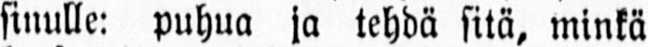sinulle: puhua ja tehdä sitä, minkä
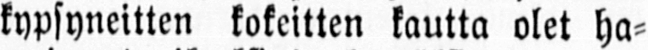kypsyneitten kokeitten kautta olet ha-
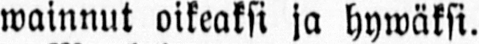wainnut oikeaksi ja hywäksi.
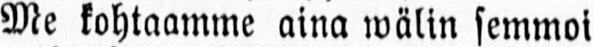Me kohtaamme aina wälin semmoi-
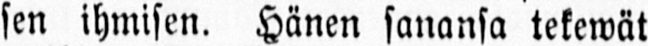sen ihmisen. Hänen sanansa tekewät
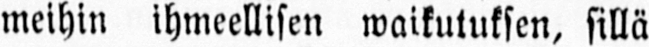meihin ihmeellisen waikutuksen, sillä
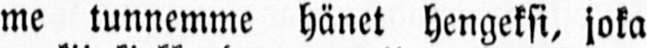me tunnemme hänet hengeksi, joka
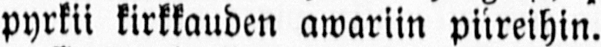pyrkii kirkkauden awariin piireihin.
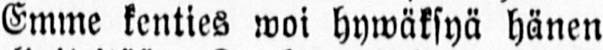Emme kenties woi hywäksyä hänen
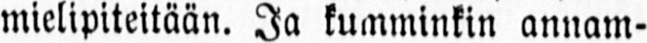mielipiteitään. Ja kumminkin annam-
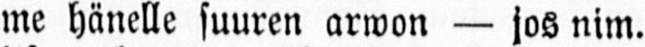me hänelle suuren arwon — jos nim.
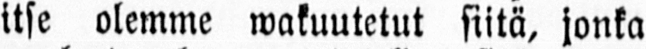itse olemme wakuutetut siitä, jonka
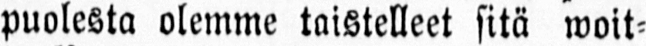puolesta olemme taistelleet sitä woit-
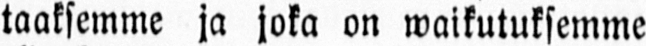taaksemme ja joka on waikutuksemme
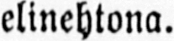elinehtona.
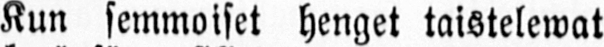Kun semmoiset henget taistelewat
